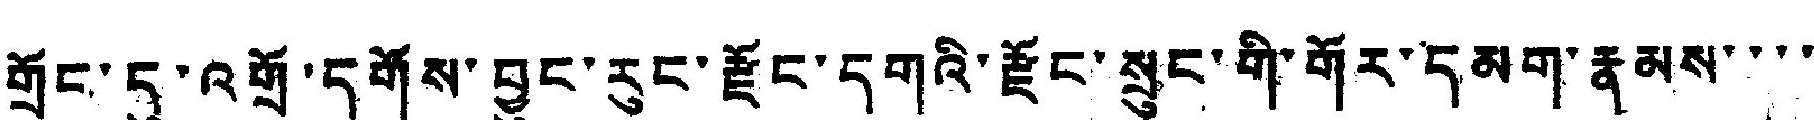གྲོང་དུ་འགྲོ་དགོས་བྱུང་རུང་རྫོང་དགའི་རྫོང་སྲུང་གི་གོར་དམག་རྣམས་་་་
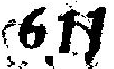611
